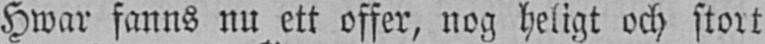Hwar fanns nu ett offer, nog heligt och stort
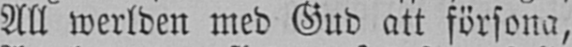All werlden med Gud att försona,
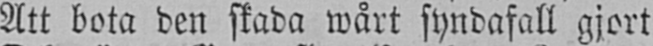Att bota den skada wårt syndafall gjort
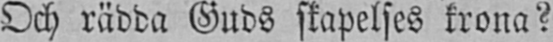Och rädda Guds skapelses krona?
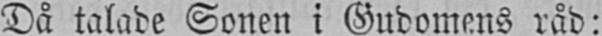Då talade Sonen i Gudomens råd:
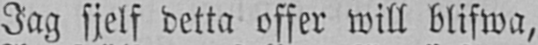Jag sjelf detta offer will blifwa,
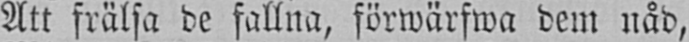Att frälsa de fallna, förwärfwa dem nåd,
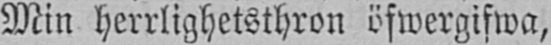Min herrlighetsthron öfwergifwa,
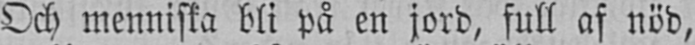Och menniska bli på en jord, full af nöd,
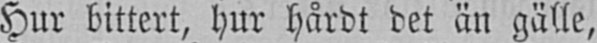Hur bittert, hur hårdt det än gälle,
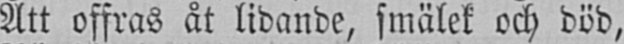Att offras åt lidande, smälek och död,
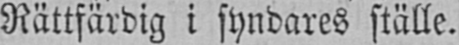Rättfärdig i syndares ställe.
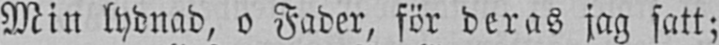Min lydnad, o Fader, för deras jag satt;
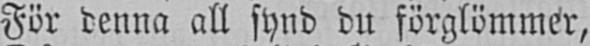För denna all synd du förglömmer,
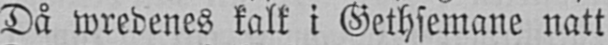Då wredenes kalk i Gethsemane natt
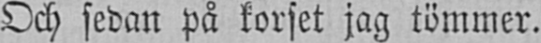Och sedan på korset jag tömmer.
